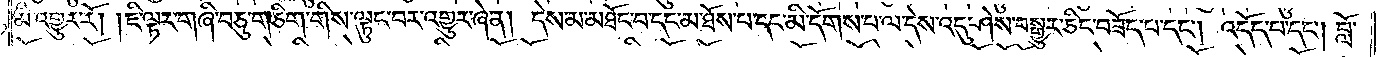མི་འགྱུར་རོ། །ཇི་ལྟར་གཞི་བཅུ་གཅིག་གིས་ལྟུང་བར་འགྱུར་ཞེ་ན། དེས་མ་མཐོང་བ་དང་མ་ཐོས་པ་དང་མི་དོགས་པ་ལ་དེས་འདུ་ཤེས་བསྒྱུར་ཅིང་བཟོད་པ་དང༌། འདོད་པ་དང༌། བློ་
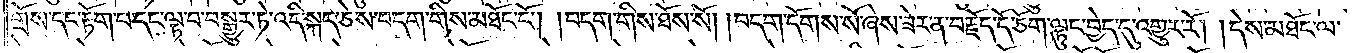གྲོས་དང་རྟོག་པ་དང་ལྟ་བ་བསྒྱུར་ཏེ་འདི་སྐད་ཅེས་བདག་གིས་མཐོང་ངོ༌། །བདག་གིས་ཐོས་སོ། །བདག་དོགས་སོ་ཞེས་ཟེར་ན་བརྗོད་དོ་ཅོག་ལྟུང་བྱེད་དུ་འགྱུར་རོ། །དེས་མཐོང་ལ་
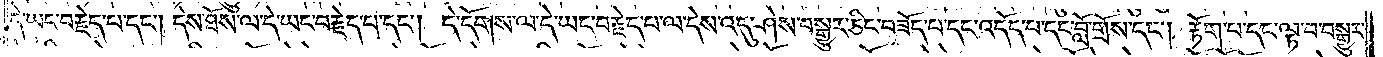དེ་ཡང་བརྗེད་པ་དང༌། དེས་ཐོས་ལ་དེ་ཡང་བརྗེད་པ་དང༌། དེ་དོགས་ལ་དེ་ཡང་བརྗེད་པ་ལ་དེས་འདུ་ཤེས་བསྒྱུར་ཅིང་བཟོད་པ་དང་འདོད་པ་དང་བློ་གྲོས་དང༌། རྟོག་པ་དང་ལྟ་བ་བསྒྱུར་
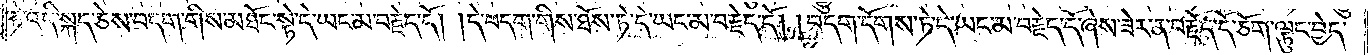ཏེ་འདི་སྐད་ཅེས་བདག་གིས་མཐོང་སྟེ་དེ་ཡང་མ་བརྗེད་དོ། །དེ་བདག་གིས་ཐོས་ཏེ་དེ་ཡང་མ་བརྗེད་དོ། །བདག་དོགས་ཏེ་དེ་ཡང་མ་བརྗེད་དོ་ཞེས་ཟེར་ན་བརྗོད་དོ་ཅོག་ལྟུང་བྱེད་
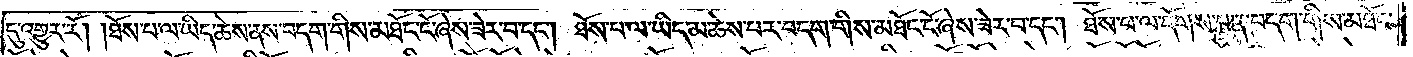དུ་འགྱུར་རོ། །ཐོས་པ་ལ་ཡིད་ཆེས་ནས་བདག་གིས་མཐོང་ངོ་ཞེས་ཟེར་བ་དང༌། ཐོས་པ་ལ་ཡིད་མ་ཆེས་པར་བདག་གིས་མཐོང་ངོ་ཞེས་ཟེར་བ་དང༌། ཐོས་པ་ལ་དོགས་པ་ན་བདག་གིས་མཐོང་
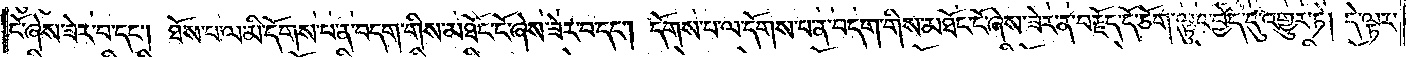ངོ་ཞེས་ཟེར་བ་དང༌། ཐོས་པ་ལ་མི་དོགས་པ་ན་བདག་གིས་མཐོང་ངོ་ཞེས་ཟེར་བ་དང༌། དོགས་པ་ལ་དོགས་པ་ན་བདག་གིས་མཐོང་ངོ་ཞེས་ཟེར་ན་བརྗོད་དོ་ཅོག་ལྟུང་བྱེད་དུ་འགྱུར་ཏེ། དེ་ལྟར་
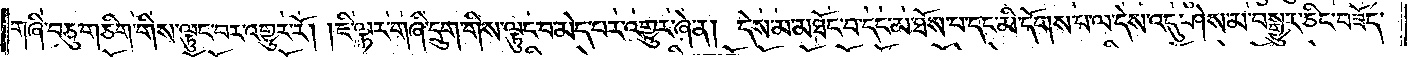གཞི་བཅུ་གཅིག་གིས་ལྟུང་བར་འགྱུར་རོ། །ཇི་ལྟར་གཞི་དྲུག་གིས་ལྟུང་བ་མེད་པར་འགྱུར་ཞེ་ན། དེས་མ་མཐོང་བ་དང་མ་ཐོས་པ་དང་མི་དོགས་པ་ལ་དེས་འདུ་ཤེས་མ་བསྒྱུར་ཅིང་བཟོད་
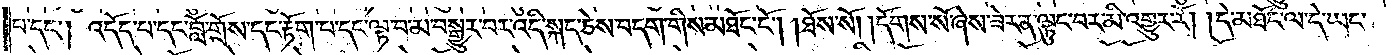པ་དང༌། འདོད་པ་དང་བློ་གྲོས་དང་རྟོག་པ་དང་ལྟ་བ་མ་བསྒྱུར་བར་འདི་སྐད་ཅེས་བདག་གིས་མཐོང་ངོ༌། །ཐོས་སོ། །དོགས་སོ་ཞེས་ཟེར་ན་ལྟུང་བར་མི་འགྱུར་རོ། །དེ་མཐོང་ལ་དེ་ཡང་
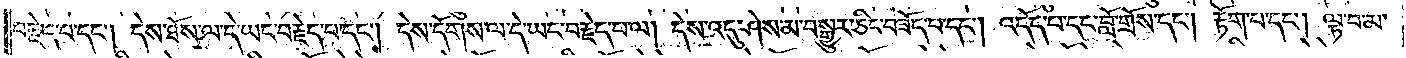བརྗེད་པ་དང༌། དེས་ཐོས་ལ་དེ་ཡང་བརྗེད་པ་དང༌། དེས་དོགས་ལ་དེ་ཡང་བརྗེད་པ་ལ། དེས་འདུ་ཤེས་མ་བསྒྱུར་ཅིང་བཟོད་པ་དང༌། འདོད་པ་དང་བློ་གྲོས་དང༌། རྟོག་པ་དང༌། ལྟ་བ་མ་
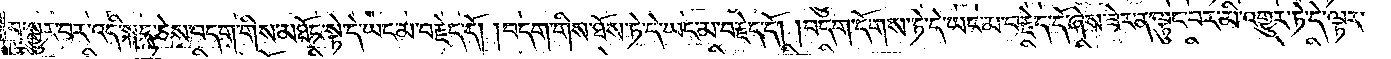བསྒྱུར་བར་འདི་སྐད་ཅེས་བདག་གིས་མཐོང་སྟེ་དེ་ཡང་མ་བརྗེད་དོ། །བདག་གིས་ཐོས་ཏེ་དེ་ཡང་མ་བརྗེད་དོ། །བདག་དོགས་ཏེ་དེ་ཡང་མ་བརྗེད་དོ་ཞེས་ཟེར་ན་ལྟུང་བར་མི་འགྱུར་ཏེ་དེ་ལྟར་
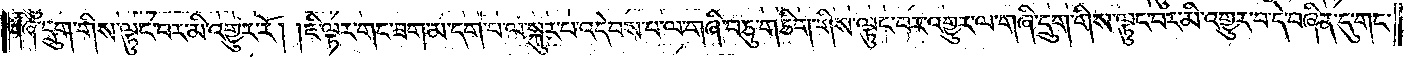གཞི་དྲུག་གིས་ལྟུང་བར་མི་འགྱུར་རོ། །ཇི་ལྟར་གང་ཟག་མ་དག་པ་ལ་སྐུར་པ་འདེབས་པ་ལ་གཞི་བཅུ་གཅིག་གིས་ལྟུང་བར་འགྱུར་ལ་གཞི་དྲུག་གིས་ལྟུང་བར་མི་འགྱུར་བ་དེ་བཞིན་དུ་གང་
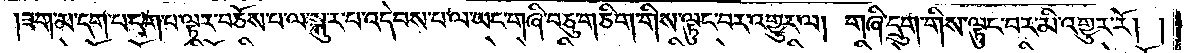ཟག་མ་དག་པ་དག་པ་ལྟར་བཅོས་པ་ལ་སྐུར་པ་འདེབས་པ་ལ་ཡང་གཞི་བཅུ་གཅིག་གིས་ལྟུང་བར་འགྱུར་ལ། གཞི་དྲུག་གིས་ལྟུང་བར་མི་འགྱུར་རོ། །
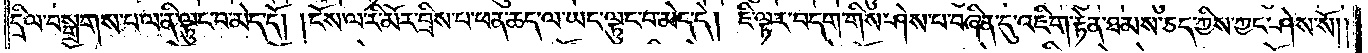དྲིལ་བསྒྲགས་པ་ལ་ནི་ལྟུང་བ་མེད་དོ། །ངོས་ལ་རི་མོར་བྲིས་པ་ཕན་ཆད་ལ་ཡང་ལྟུང་བ་མེད་དེ། ཇི་ལྟར་བདག་གིས་ཤེས་པ་བཞིན་དུ་འཇིག་རྟེན་ཐམས་ཅད་ཀྱིས་ཀྱང་ཤེས་སོ། །
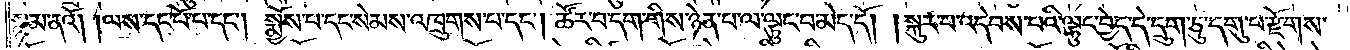སྙམ་ནའོ། །ལས་དང་པོ་བ་དང༌། སྨྱོས་པ་དང་སེམས་འཁྲུགས་པ་དང༌། ཚོར་བ་དག་གིས་ཉེན་པ་ལ་ལྟུང་བ་མེད་དོ། །སྐུར་པ་འདེབས་པའི་ལྟུང་བྱེད་དེ་དྲུག་ཅུ་དགུ་པ་རྫོགས་
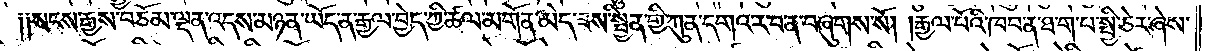༑༑སངས་རྒྱས་བཅོམ་ལྡན་འདས་མཉན་ཡོད་ན་རྒྱལ་བྱེད་ཀྱི་ཚལ་མགོན་མེད་ཟས་སྦྱིན་གྱི་ཀུན་དགའ་ར་བ་ན་བཞུགས་སོ། །རྒྱལ་པོའི་ཁབ་ན་ཐ་ག་པ་སྤྱི་ཅེར་ཞེས་
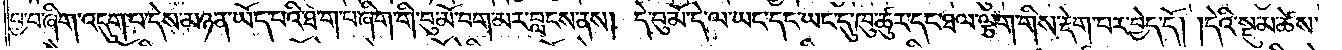བྱ་བ་ཞིག་འདུག་པ་དེས་མཉན་ཡོད་པའི་ཐ་ག་པ་ཞིག་གི་བུ་མོ་བག་མར་བླངས་ནས། དེ་བུ་མོ་དེ་ལ་ཡང་དང་ཡང་དུ་ཁུ་ཚུར་དང་ཐལ་ལྕག་གིས་རྡེག་པར་བྱེད་དོ། །དེའི་སྡུམ་ཚེས་
